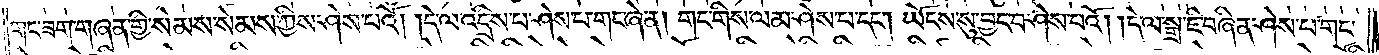གང་ཟག་གཞན་གྱི་སེམས་སེམས་ཀྱིས་ཤེས་པའོ། །དེ་ལ་འདྲིས་པ་ཤེས་པ་གང་ཞེ་ན། གང་གིས་ལམ་ཤེས་པ་དང༌། ཡོངས་སུ་བྱང་བ་ཤེས་པའོ། །དེ་ལ་སྒྲ་ཇི་བཞིན་གཤེགས་པ་གང་
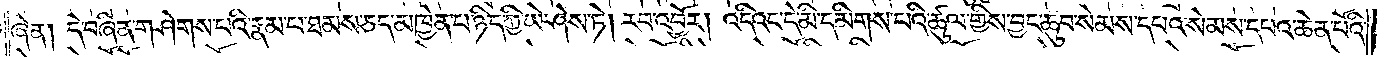ཞེ་ན། དེ་བཞིན་གཤེགས་པའི་རྣམ་པ་ཐམས་ཅད་མཁྱེན་པ་ཉིད་ཀྱི་ཡེ་ཤེས་ཏེ། རབ་འབྱོར། འདིའང་དེ་མི་དམིགས་པའི་ཚུལ་གྱིས་བྱང་ཆུབ་སེམས་དཔའ་སེམས་དཔའ་ཆེན་པོའི་
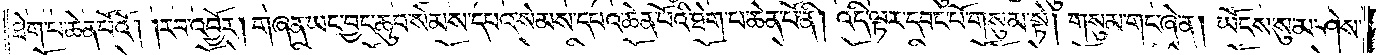ཐེག་པ་ཆེན་པོའོ། །རབ་འབྱོར། གཞན་ཡང་བྱང་ཆུབ་སེམས་དཔའ་སེམས་དཔའ་ཆེན་པོའི་ཐེག་པ་ཆེན་པོ་ནི། འདི་ལྟར་དབང་པོ་གསུམ་སྟེ། གསུམ་གང་ཞེ་ན། ཡོངས་སུ་མ་ཤེས་
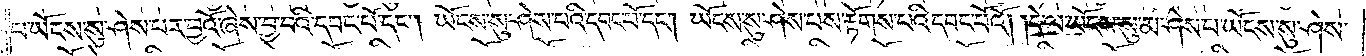པ་ཡོངས་སུ་ཤེས་པར་བྱའོ་ཞེས་བྱ་བའི་དབང་པོ་དང༌། ཡོངས་སུ་ཤེས་པའི་དབང་པོ་དང༌། ཡོངས་སུ་ཤེས་པས་རྟོགས་པའི་དབང་པོའོ། །དེ་ལ་ཡོངས་སུ་མ་ཤེས་པ་ཡོངས་སུ་ཤེས་
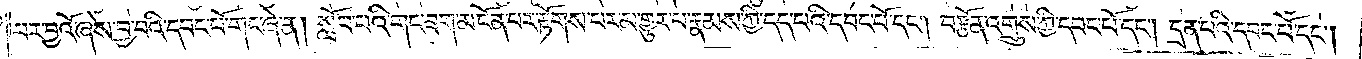པར་བྱའོ་ཞེས་བྱ་བའི་དབང་པོ་གང་ཞེ་ན། སློབ་པའི་གང་ཟག་མངོན་པར་རྟོགས་པར་མ་གྱུར་པ་རྣམས་ཀྱི་དད་པའི་དབང་པོ་དང༌། བརྩོན་འགྲུས་ཀྱི་དབང་པོ་དང༌། དྲན་པའི་དབང་པོ་དང༌།
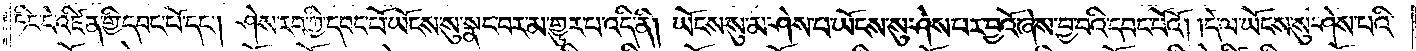ཏིང་ངེ་འཛིན་གྱི་དབང་པོ་དང༌། ཤེས་རབ་ཀྱི་དབང་པོ་ཡོངས་སུ་སྣང་བར་མ་གྱུར་པ་འདི་ནི། ཡོངས་སུ་མ་ཤེས་པ་ཡོངས་སུ་ཤེས་པར་བྱའོ་ཞེས་བྱ་བའི་དབང་པོའོ། །དེ་ལ་ཡོངས་སུ་ཤེས་པའི་
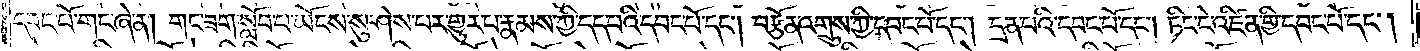དབང་པོ་གང་ཞེ་ན། གང་ཟག་སློབ་པ་ཡོངས་སུ་ཤེས་པར་མ་གྱུར་པ་རྣམས་ཀྱི་དད་པའི་དབང་པོ་དང༌། བརྩོན་འགྲུས་ཀྱི་དབང་པོ་དང༌། དྲན་པའི་དབང་པོ་དང༌། ཏིང་ངེ་འཛིན་གྱི་དབང་པོ་དང༌།
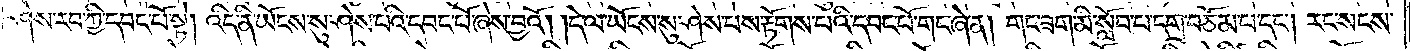ཤེས་རབ་ཀྱི་དབང་པོ་སྟེ། འདི་ནི་ཡོངས་སུ་ཤེས་པའི་དབང་པོ་ཞེས་བྱའོ། །དེ་ལ་ཡོངས་སུ་ཤེས་པས་རྟོགས་པའི་དབང་པོ་གང་ཞེ་ན། གང་ཟག་མི་སློ་བ་པ་དགྲ་བཅོམ་པ་དང༌། རང་སངས་
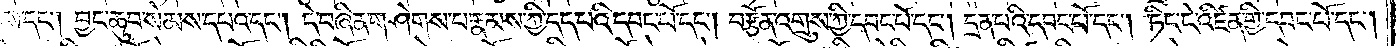དང༌། བྱང་ཆུབ་སེམས་དཔའ་དང༌། དེ་བཞིན་གཤེགས་པ་རྣམས་ཀྱི་དད་པའི་དབང་པོ་དང༌། བརྩོན་འགྲུས་ཀྱི་དབང་པོ་དང༌། དྲན་པའི་དབང་པོ་དང༌། ཏིང་ངེ་འཛིན་གྱི་དབང་པོ་དང༌།
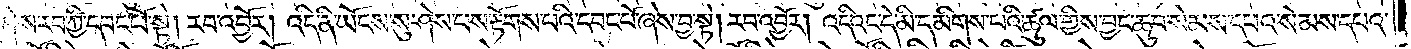ཤེས་རབ་ཀྱི་དབང་པོ་སྟེ། རབ་འབྱོར། འདི་ནི་ཡོངས་སུ་ཤེས་པས་རྟོགས་པའི་དབང་པོ་ཞེས་བྱ་སྟེ། རབ་འབྱོར། འདིའང་དེ་མི་དམིགས་པའི་ཚུལ་གྱིས་བྱང་ཆུབ་སེམས་དཔའ་སེམས་དཔའ་
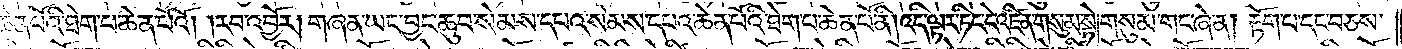ཆེན་པོའི་ཐེག་པ་ཆེན་པོའོ། །རབ་འབྱོར། གཞན་ཡང་བྱང་ཆུབ་སེམས་དཔའ་སེམས་དཔའ་ཆེན་པོའི་ཐེག་པ་ཆེན་པོ་ནི། འདི་ལྟར་ཏིང་ངེ་འཛིན་གསུམ་སྟེ། གསུམ་གང་ཞེ་ན། རྟོག་པ་དང་བཅས་
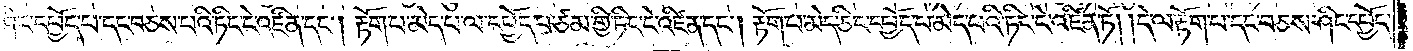ཤིང་དཔྱོད་པ་དང་བཅས་པའི་ཏིང་ངེ་འཛིན་དང༌། རྟོག་པ་མེད་པ་ལ་དཔྱོད་པ་ཙམ་གྱི་ཏིང་ངེ་འཛིན་དང༌། རྟོག་པ་མེད་ཅིང་དཔྱོད་པ་མེད་པའི་ཏིང་ངེ་འཛིན་ཏོ། །དེ་ལ་རྟོག་པ་དང་བཅས་ཤིང་དཔྱོད་
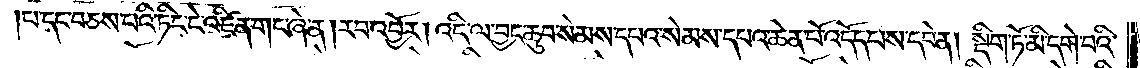པ་དང་བཅས་པའི་ཏིང་ངེ་འཛིན་གང་ཞེ་ན། རབ་འབྱོར། འདི་ལ་བྱང་ཆུབ་སེམས་དཔའ་སེམས་དཔའ་ཆེན་པོ་འདོད་པས་དབེན། སྡིག་ཏོ་མི་དགེ་བའི་
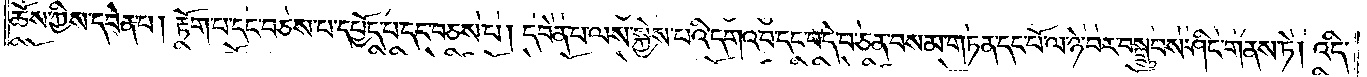ཆོས་ཀྱིས་དབེན་པ། རྟོག་པ་དང་བཅས་པ་དཔྱོད་པ་དང་བཅས་པ། དབེན་པ་ལས་སྐྱེས་པའི་དགའ་བ་དང་བདེ་བ་ཅན་བསམ་གཏན་དང་པོ་ལ་ཉེ་བར་བསྒྲུབས་ཤིང་གནས་ཏེ། འདི་
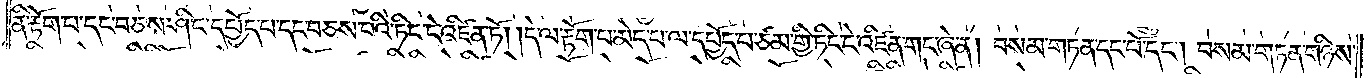ནི་རྟོག་པ་དང་བཅས་ཤིང་དཔྱོད་པ་དང་བཅས་པའི་ཏིང་ངེ་འཛིན་ཏོ། །དེ་ལ་རྟོག་པ་མེད་པ་ལ་དཔྱོད་པ་ཙམ་གྱི་ཏིང་ངེ་འཛིན་གང་ཞེ་ན། བསམ་གཏན་དང་པོ་དང༌། བསམ་གཏན་གཉིས་
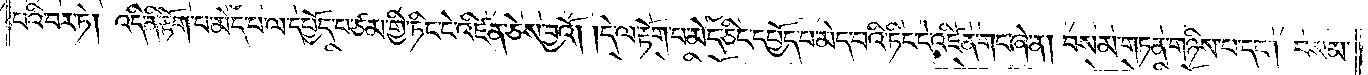པའི་བར་ཏེ། འདི་ནི་རྟོག་པ་མེད་པ་ལ་དཔྱོད་པ་ཙམ་གྱི་ཏིང་ངེ་འཛིན་ཅེས་བྱའོ། །དེ་ལ་རྟོག་པ་མེད་ཅིང་དཔྱོད་པ་མེད་པའི་ཏིང་ངེ་འཛིན་གང་ཞེ་ན། བསམ་གཏན་གཉིས་པ་དང༌། བསམ་
